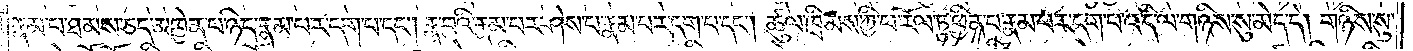རྣམ་པ་ཐམས་ཅད་མཁྱེན་པ་ཉིད་རྣམ་པར་དག་པ་དང༌། རྣ་བའི་རྣམ་པར་ཤེས་པ་རྣམ་པར་དག་པ་དང༌། ཚུལ་ཁྲིམས་ཀྱི་ཕ་རོལ་ཏུ་ཕྱིན་པ་རྣམ་པར་དག་པ་འདི་ལ་གཉིས་སུ་མེད་དེ། གཉིས་སུ་
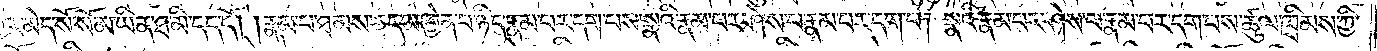བྱར་མེད་སོ་སོ་མ་ཡིན་ཐ་མི་དད་དོ། །རྣམ་པ་ཐམས་ཅད་མཁྱེན་པ་ཉིད་རྣམ་པར་དག་པས་སྣའི་རྣམ་པར་ཤེས་པ་རྣམ་པར་དག་པ། སྣའི་རྣམ་པར་ཤེས་པ་རྣམ་པར་དག་པས་ཚུལ་ཁྲིམས་ཀྱི་
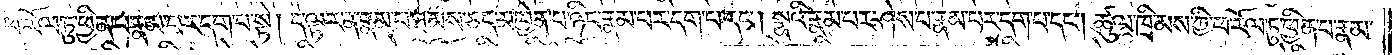ཕ་རོལ་ཏུ་ཕྱིན་པ་རྣམ་པར་དག་པ་སྟེ། དེ་ལྟར་ན་རྣམ་པ་ཐམས་ཅད་མཁྱེན་པ་ཉིད་རྣམ་པར་དག་པ་དང༌། སྣའི་རྣམ་པར་ཤེས་པ་རྣམ་པར་དག་པ་དང༌། ཚུལ་ཁྲིམས་ཀྱི་ཕ་རོལ་ཏུ་ཕྱིན་པ་རྣམ་
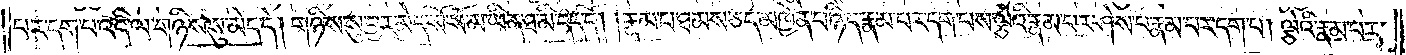པར་དག་པ་འདི་ལ་གཉིས་སུ་མེད་དེ། གཉིས་སུ་བྱར་མེད་སོ་སོ་མ་ཡིན་ཐ་མི་དད་དོ། །རྣམ་པ་ཐམས་ཅད་མཁྱེན་པ་ཉིད་རྣམ་པར་དག་པས་ལྕེའི་རྣམ་པར་ཤེས་པ་རྣམ་པར་དག་པ། ལྕེའི་རྣམ་པར་
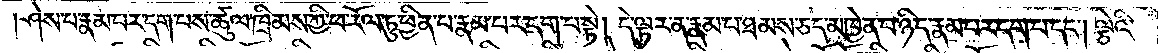ཤེས་པ་རྣམ་པར་དག་པས་ཚུལ་ཁྲིམས་ཀྱི་ཕ་རོལ་ཏུ་ཕྱིན་པ་རྣམ་པར་དག་པ་སྟེ། དེ་ལྟར་ན་རྣམ་པ་ཐམས་ཅད་མཁྱེན་པ་ཉིད་རྣམ་པར་དག་པ་དང༌། ལྕེའི་
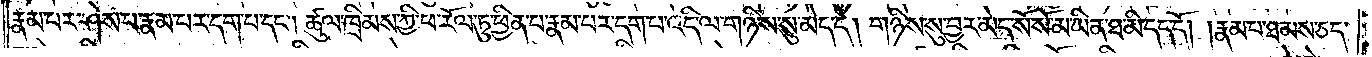རྣམ་པར་ཤེས་པ་རྣམ་པར་དག་པ་དང༌། ཚུལ་ཁྲིམས་ཀྱི་ཕ་རོལ་ཏུ་ཕྱིན་པ་རྣམ་པར་དག་པ་འདི་ལ་གཉིས་སུ་མེད་དེ། གཉིས་སུ་བྱར་མེད་སོ་སོ་མ་ཡིན་ཐ་མི་དད་དོ། །རྣམ་པ་ཐམས་ཅད་
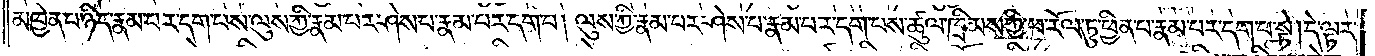མཁྱེན་པ་ཉིད་རྣམ་པར་དག་པས་ལུས་ཀྱི་རྣམ་པར་ཤེས་པ་རྣམ་པར་དག་པ། ལུས་ཀྱི་རྣམ་པར་ཤེས་པ་ནམ་པར་དག་པས་ཚུལ་ཁྲིམས་ཀྱི་ཕ་རོལ་ཏུ་ཕྱིན་པ་རྣམ་པར་དག་པ་སྟེ། དེ་ལྟར་
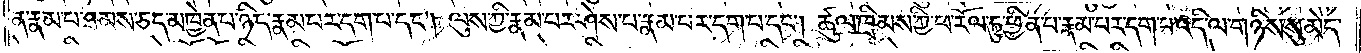ན་རྣམ་པ་ཐམས་ཅད་མཁྱེན་པ་ཉིད་རྣམ་པར་དག་པ་དང༌། ལུས་ཀྱི་རྣམ་པར་ཤེས་པ་རྣམ་པར་དག་པ་དང༌། ཚུལ་ཁྲིམས་ཀྱི་ཕ་རོལ་ཏུ་ཕྱིན་པ་རྣམ་པར་དག་པ་འདི་ལ་གཉིས་སུ་མེད་
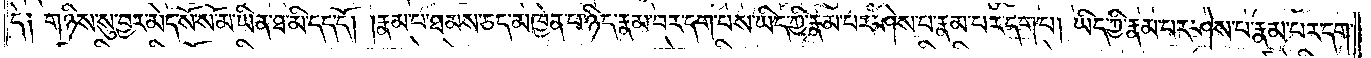དེ༑ གཉིས་སུ་བྱར་མེད་སོ་སོ་མ་ཡིན་ཐ་མི་དད་དོ། །རྣམ་པ་ཐམས་ཅད་མཁྱེན་པ་ཉིད་རྣམ་པར་དག་པས་ཡིད་ཀྱི་རྣམ་པར་ཤེས་པ་རྣམ་པར་དག་པ། ཡིད་ཀྱི་རྣམ་པར་ཤེས་པ་རྣམ་པར་དག་
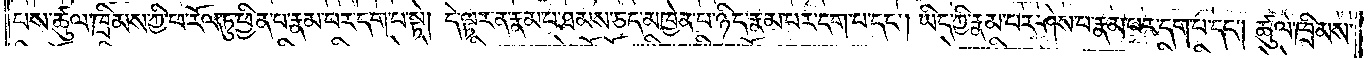པས་ཚུལ་ཁྲིམས་ཀྱི་ཕ་རོལ་ཏུ་ཕྱིན་པ་རྣམ་པར་དག་པ་སྟེ། དེ་ལྟར་ན་རྣམ་པ་ཐམས་ཅད་མཁྱེན་པ་ཉིད་རྣམ་པར་དག་པ་དང༌། ཡིད་ཀྱི་རྣམ་པར་ཤེས་པ་རྣམ་པར་དག་པ་དང༌། ཚུལ་ཁྲིམས་
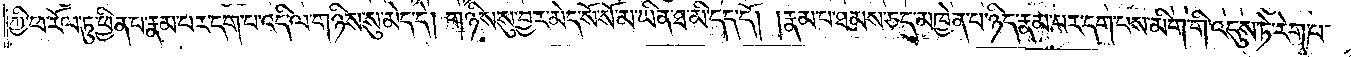ཀྱི་ཕ་རོལ་ཏུ་ཕྱིན་པ་རྣམ་པར་དག་པ་འདི་ལ་གཉིས་སུ་མེད་དེ། གཉིས་སུ་བྱར་མེད་སོ་སོ་མ་ཡིན་ཐ་མི་དད་དོ། །རྣམ་པ་ཐམས་ཅད་མཁྱེན་པ་ཉིད་རྣམ་པར་དག་པས་མིག་གི་འདུས་ཏེ་རེག་པ་
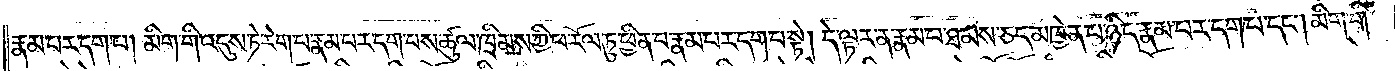རྣམ་པར་དག་པ། མིག་གི་འདུས་ཏེ་རེག་པ་རྣམ་པར་དག་པས་ཚུལ་ཁྲིམས་ཀྱི་ཕ་རོལ་ཏུ་ཕྱིན་པ་རྣམ་པར་དག་པ་སྟེ། དེ་ལྟར་ན་རྣམ་པ་ཐམས་ཅད་མཁྱེན་པ་ཉིད་རྣམ་པར་དག་པ་དང༌། མིག་གི་
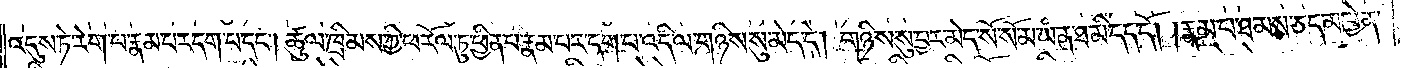འདུས་ཏེ་རེག་པ་རྣམ་པར་དག་པ་དང༌། ཚུལ་ཁྲིམས་ཀྱི་ཕ་རོལ་ཏུ་ཕྱིན་པ་རྣམ་པར་དག་པ་འདི་ལ་གཉིས་སུ་མེད་དེ། གཉིས་སུ་བྱར་མེད་སོ་སོ་མ་ཡིན་ཐ་མི་དད་དོ། །རྣམ་པ་ཐམས་ཅད་མཁྱེན་
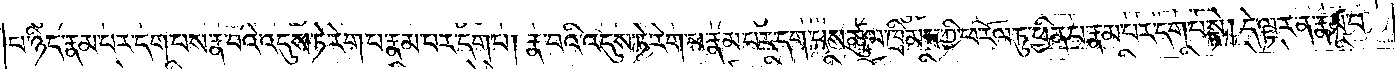པ་ཉིད་རྣམ་པར་དག་པས་རྣ་བའི་འདུས་ཏེ་རེག་པ་རྣམ་པར་དག་པ། རྣ་བའི་འདུས་ཏེ་རེག་པ་རྣམ་པར་དག་པས་ཚུལ་ཁྲིམས་ཀྱི་ཕ་རོལ་ཏུ་ཕྱིན་པ་རྣམ་པར་དག་པ་སྟེ། དེ་ལྟར་ན་རྣམ་པ་
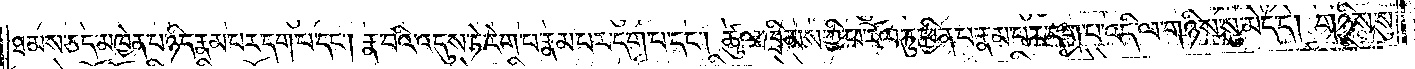ཐམས་ཅད་མཁྱེན་པ་ཉིད་རྣམ་པར་དག་པ་དང༌། རྣ་བའི་འདུས་ཏེ་རེག་པ་རྣམ་པར་དག་པ་དང༌། ཚུལ་ཁྲིམས་ཀྱི་ཕ་རོལ་ཏུ་ཕྱིན་པ་རྣམ་པར་དག་པ་འདི་ལ་གཉིས་སུ་མེད་དེ། གཉིས་སུ་
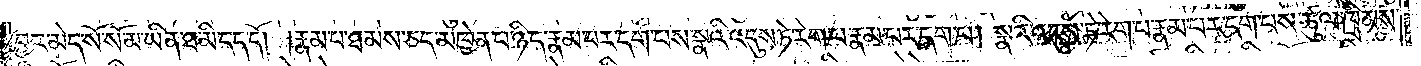བྱར་མེད་སོ་སོ་མ་ཡིན་ཐ་མི་དད་དོ། །རྣམ་པ་ཐམས་ཅད་མཁྱེན་པ་ཉིད་རྣམ་པར་དག་པས་སྣའི་འདུས་ཏེ་རེག་པ་རྣམ་པར་དག་པ། སྣའི་འདུས་ཏེ་རེག་པ་རྣམ་པར་དག་པས་ཚུལ་ཁྲིམས་
